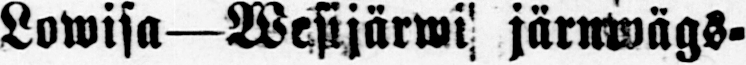Lowisa —Wesijärwi järnwägs-
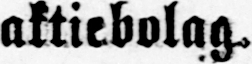aktiebolag.
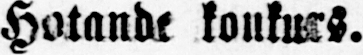Hotande konkurs.
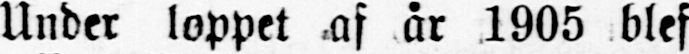Under loppet af år 1905 blef
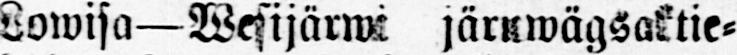Lowisa—Wesijärwi järnwägsaktie-
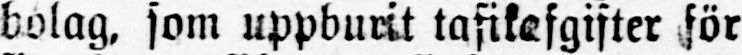bolag, som uppburit tafikafgifter för
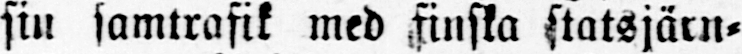sin samtrafik med finska statsjärn-
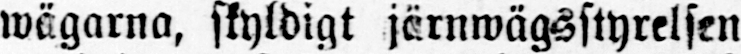wägarna, skyldigt järnwägsstyrelsen
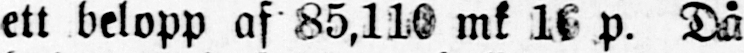ett belopp af 85,110 mk 16 p. Då
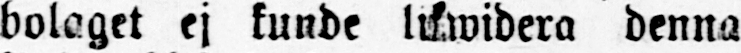bolaget ej kunde likwidera denna
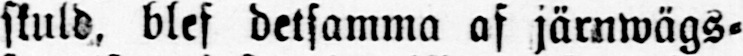skuld, blef detsamma af järnwägs-
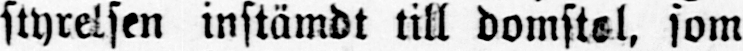styrelsen instämdt till domstol, som
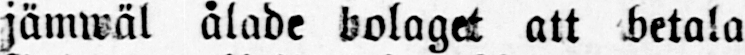jämwäl ålade bolaget att betala
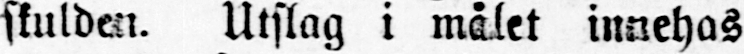skulden. Utslag i målet innehas
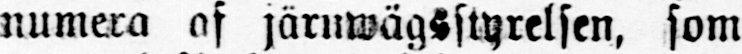numera af järnwägsstyrelsen, som
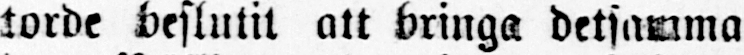torde beslutit att bringa detsamma
